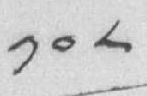༡༠༨
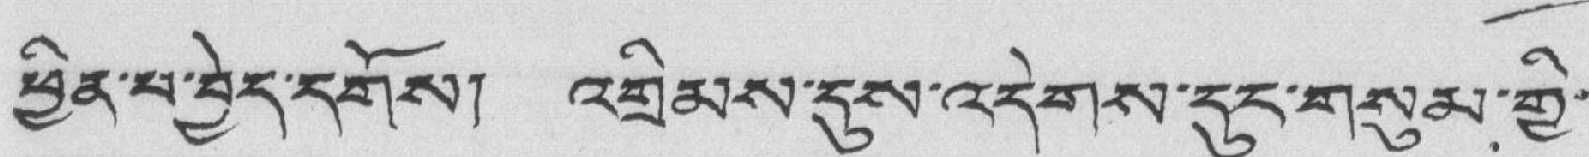ཕྱིན་པ་བྱེད་དགོས། འགྲིམས་དུས་འདེགས་དུང་གསུམ་གྱི་
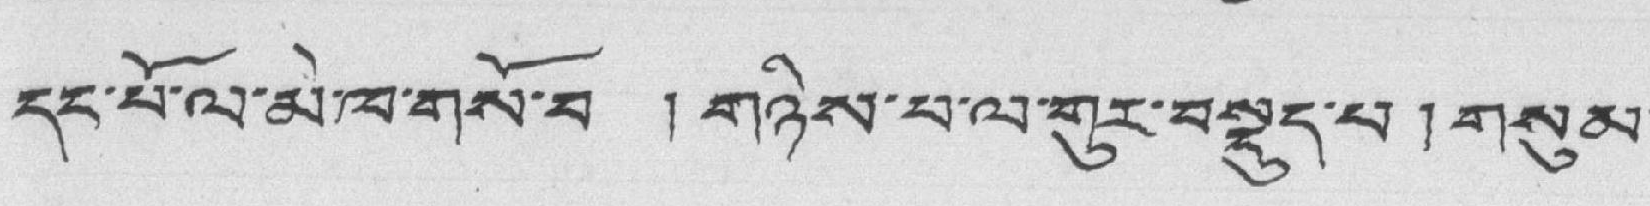དང་པོ་ལ་མེ་ཁ་གསོ་བ ། གཉིས་པ་ལ་གུར་བསྡུད་པ ། གསུམ་
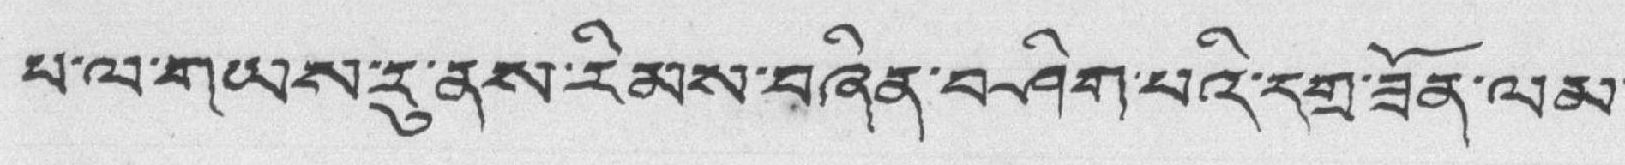པ་ལ་གཡས་རུ་ནས་རིམས་བཞིན་བཤིག་པའི་དགྲ་ཟོན་ལམ་
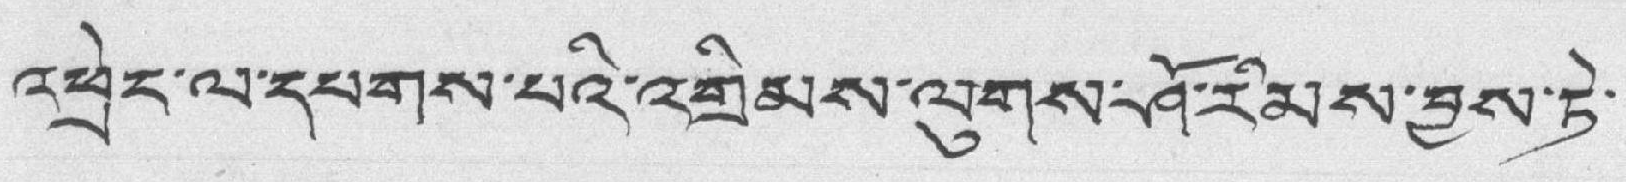འཕྲེང་ལ་དཔགས་པའི་འགྲིམས་ལུགས་ཤོ་རིམས་བྱས་ཏེ་
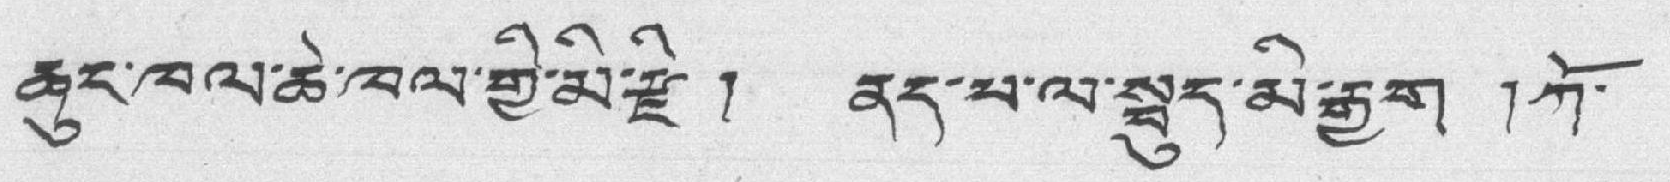ཆུང་ཁལ་ཆེ་ཁལ་གྱི་མི་རྫི ། ནད་པ་ལ་སྦུད་མི་རྒྱུག ། ཀོ་
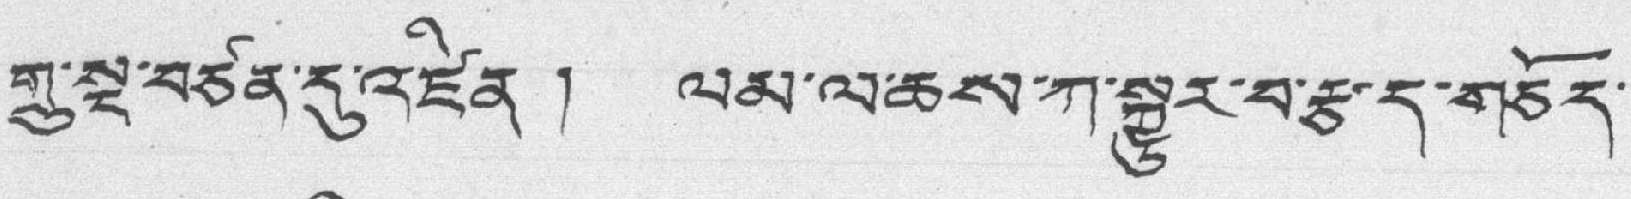གྲུ་སྔ་བཙན་དུ་འཛིན ། ལམ་ལ་ཆས་ཀ་སྐྱུར་བ་རྩད་གཅོད་
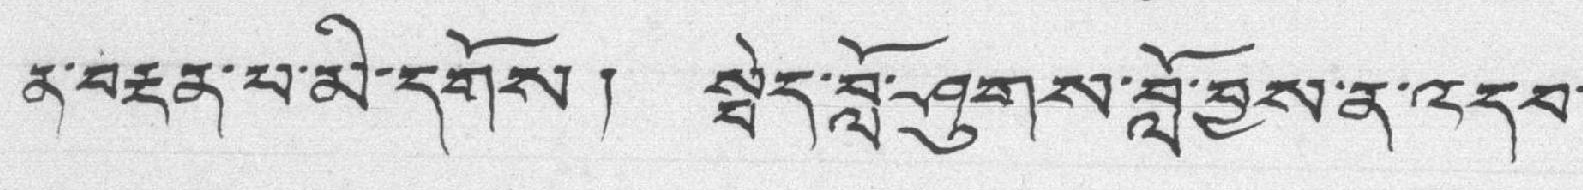ན་བརྔན་པ་མི་དགོས། སྦེད་བློ་ཤུགས་བློ་བྱས་ན་འདབ་
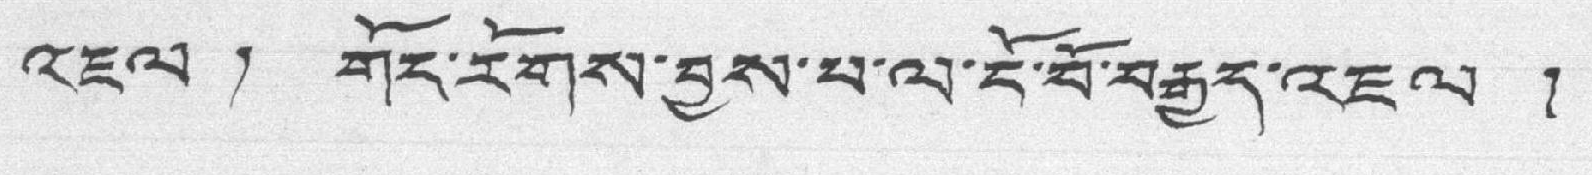འཇལ ། གོང་རོགས་བྱས་པ་ལ་ངོ་བོ་བརྒྱད་འཇལ །
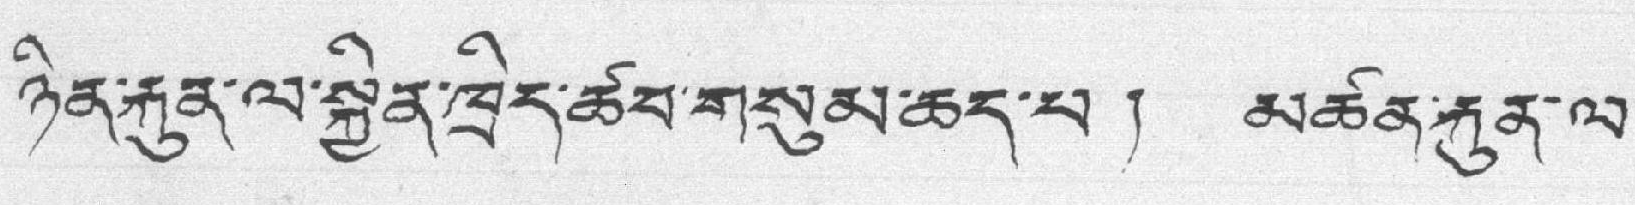ཉིན་རྐུན་ལ་སྐྱིན་ཁྲིད་ཚབ་གསུམ་ཆད་པ ། མཚན་རྐུན་ལ་
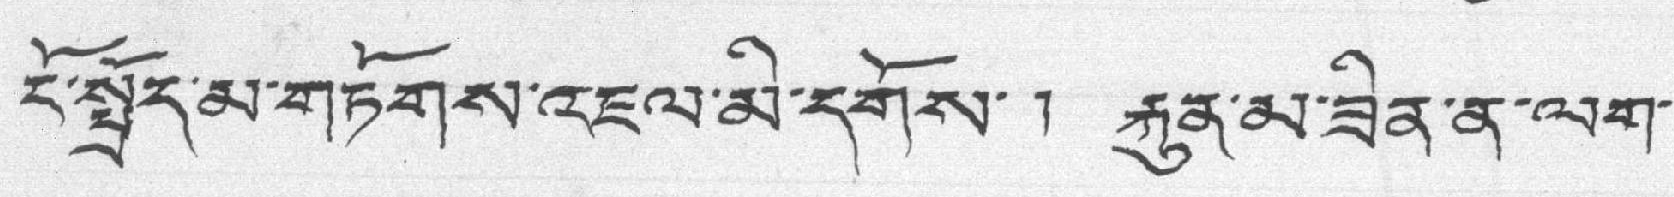ངོ་སྤྲོད་མ་གཏོགས་འཇལ་མི་དགོས་། རྐུན་མ་ཟིན་ན་ལག་
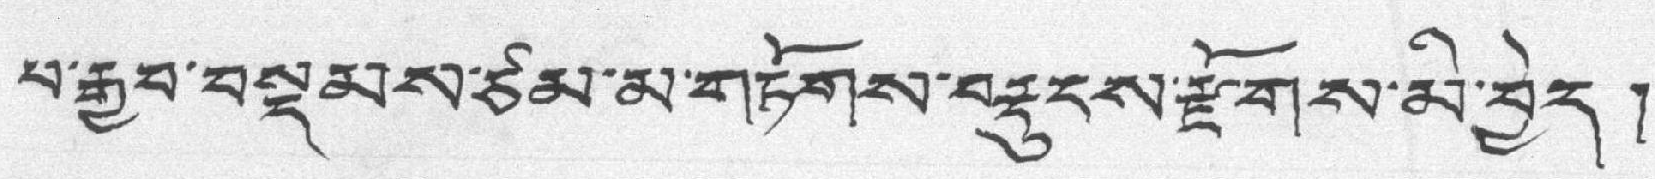པ་རྒྱབ་བསྡམས་ཙམ་མ་གཏོགས་བརྡུངས་རྫོགས་མི་བྱེད །
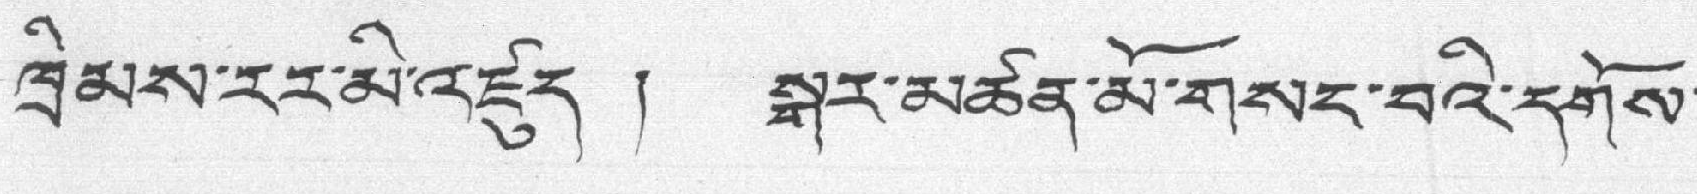ཁྲིམས་རར་མི་འཛུད ། སྒར་མཚན་མོ་གསང་བའི་དགོས་
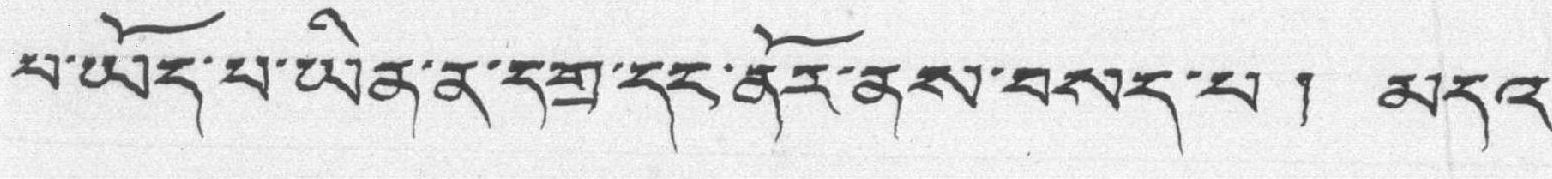པ་ཡོད་པ་ཡིན་ན་དགྲ་དང་ནོར་ནས་བསད་པ ། མདའ་
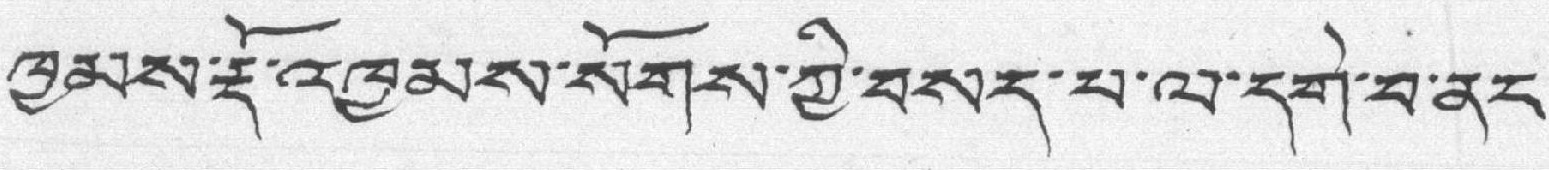ཁྱམས་རྡོ་འཁྱམས་སོགས་ཀྱི་བསད་པ་ལ་དག་བ་ནང་
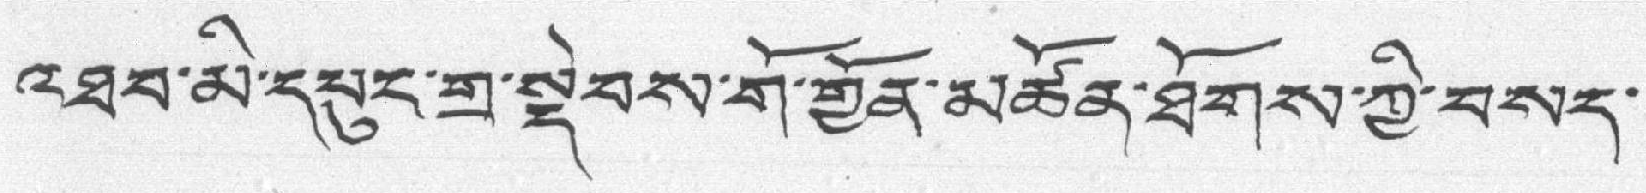འཐབ་མི་དཔུང་གྲ་སྡེབས་གོ་གྱོན་མཚོན་ཐོགས་ཀྱི་བསད་
